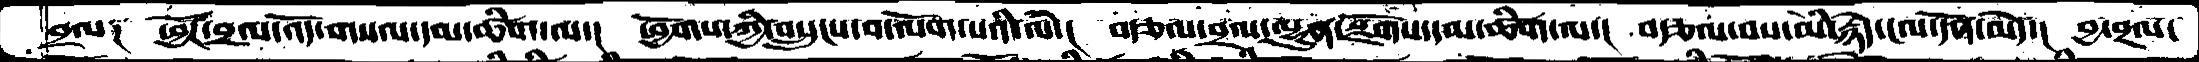བྲལ༑  ཕྱོཌ་བྲལ་འོད་གསལ་དམ་ཚིག་ལ་།  ཕྲོགས་ཀྱི་བསྲུངས་བ་ལོག་པའི་ལཾ་།  བརྩལ་བྲལ་ལྷུན་སྫོགས་དམ་ཚིག་ལ་།  བརྩལ་བས་མི་རྙེད་ངལ་དོན་མེད་།  བྱ་བྲལ་
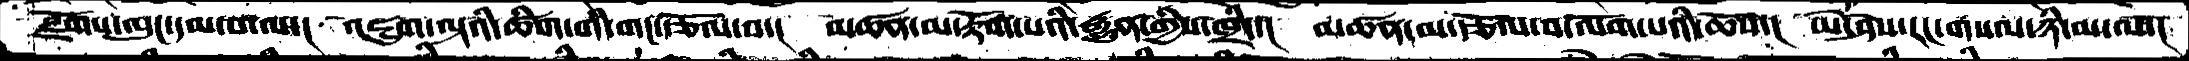སྫོགས་ལུང་དམ་པ་ལ་།  འཇུག་ལྟའི་ཚིག་གི་གང་རྩོལ་བ་།  མཚན་མ་རྟོག་པའི་རྒྱུན་གྱིས་ཁྲིད་།  མཚན་མ་རྩོལ་བ་ལོག་པའི་ཆོས་།  ཡེ་ཤེས་རང་གསལ་ཉི་མ་ལ་།
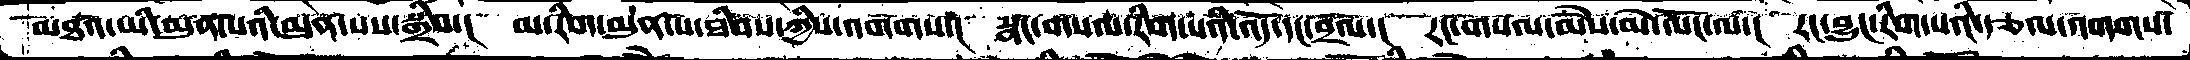མཐའ་ཡི་མུན་པའི་མུན་པས་སྒྲིབ་།   མ་རིག་མུན་པ་ཐིབས་ཀྱིས་འགགས་།  སྣང་གསལ་རིག་པའི་འོད་དང་བྲལ་།  རང་གསལ་ཡཻས་མེ་ལོང་ལ་།  རང་བྱུང་རིག་པའི་རྩལ་འགགས་
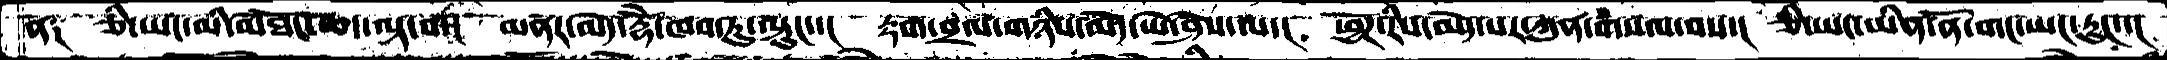ན༑   ཅི་ཡང་མི་མཐོང་ཆད་ལྟ་བ་།   མནར་མེད་རྡོེ་ཁབ་ཏུ་ལྟུང་་།  རྟག་བྲལ་གཉིས་མེད་ཡེ་ཤེས་ལ་།  ཕྱོཌ་རིས་མེད་པར་ཀུན་གསལ་བས་།  ཅི་ཡང་ཡིན་ནོ་གང་ཡང་རུང་་།
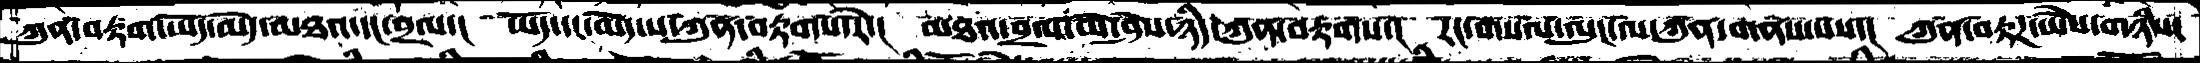ཀུན་བརྟག་ཡོད་མེད་མཐའ་དང་བྲལ་།  ཡོད་དང་མེད་པ་ཀུན་བརྟགས་རེ་།   མཐའ་བྲལ་ཡེ་ཤེས་ཉིད་ཀུན་བརྟགས་།  རང་གསལ་ལུང་ལ་ཀུན་གནས་པས་།  ཀུན་བརྟཌ་ཡཻས་གཉིས་
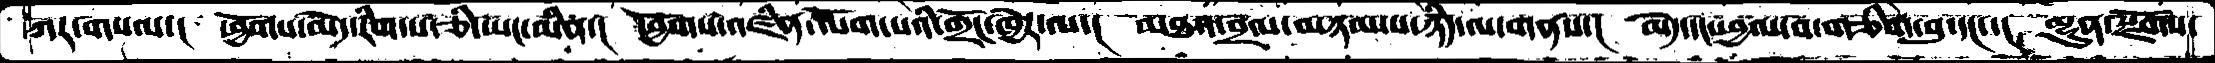ཀར་གསལ་།  ཕྱོགས་མེད་རིག་པ་ཅི་ཡང་མིན་།  ཕྱོགས་འཛིན་ལོག་པའི་གྲོང་ཁྱེར་ལ་།  མཐའ་བྲལ་མཉམ་པ་ཉིད་ལ་གནས་།  མེད་དང་ཕྱལ་བ་གཅིག་བུ་དང་་།  ལྷུན་སྫོགས་
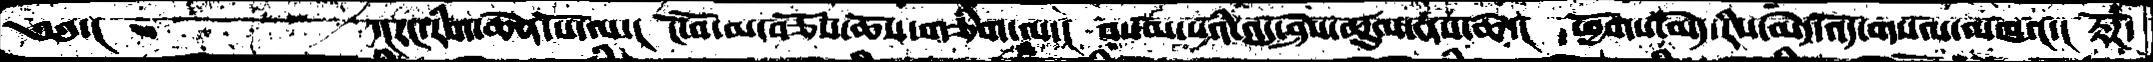༄༅་།        ་།རང་རིག་ཆེན་པོ་ལ་།  ངོ་བོ་མ་བཅོས་ཆོས་གཅིག་ལ་།  བསམ་པའི་འདུ་ཤེས་ཚུལ་ནས་ཆེ་།  ཕྱོགས་མེད་རིས་མེད་འོད་གསལ་མཁའ་།  རྟོཌ་
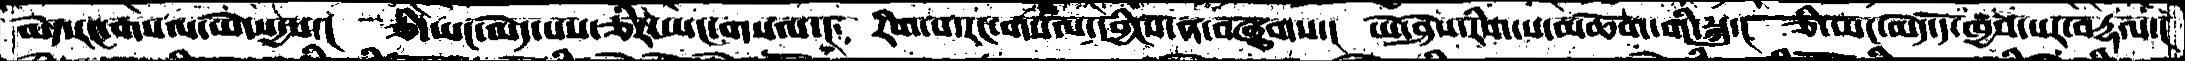མེད་རང་གསལ་ཡེ་སདྱས་།  ཅི་ཡང་མེད་པས་ཅིར་ཡང་གསལ་།  རིག་པ་རང་གསལ་དབྱིངས་ན་བཞུགས་།  ཡེ་ཤེས་རིག་པ་མཆོག་གི་སྐུ་།  ཅི་ཡང་མེད་དོ་ཁྱབ་པར་བརྡལ་།
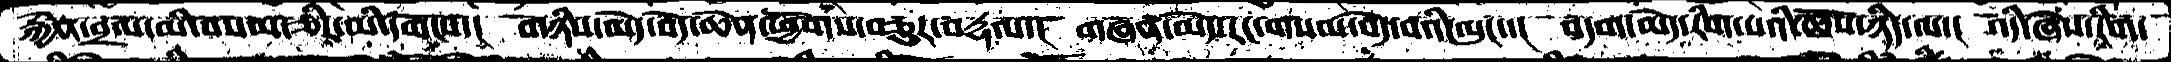རྐྱེན་བྲལ་མི་བསམ་ཅིར་མི་དགོངས་།  གཉིས་མེད་བདེ་ཆེན་ཕྱོགས་བཅུར་བརྡལ་།  གཞན་མེད་རང་གསལ་བདེ་བའི་ལུང་་།  བདག་མེད་རིག་པའི་ཆོས་ཉིད་ལ་།  འདི་ཞེས་རིག་
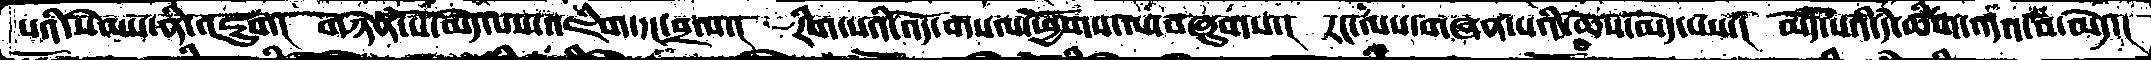པའི་སེམས་ནི་འཇུག།  གཉེན་པོ་མེད་པས་འཇིག་དང་བྲལ་།  རིག་པའི་འོད་གསལ་ཕྱོགས་ལ་བཞུགས་།  རང་ལས་གཞན་པའི་ཆོས་མེད་པས་།  མེད་པའི་དཾ་ཚིག་འདའ་བ་མེད་།
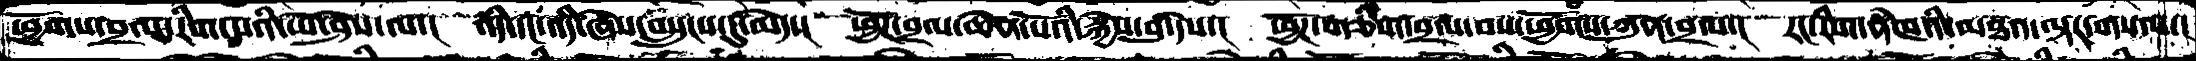ཕྱོགས་བྲལ་རིག་པའི་ཡེ་ཤེས་ལ་།  འདི་དང་འདི་ཞེས་བསྲུངས་དུ་མེད་།  ཕྱོཌ་བྲལ་ཆེན་པོའི་སྐྱེས་བུ་དེས་།  ཕྱོཌ་གཅིག་བྲལ་བས་ཕྱོགས་ཀུན་བྲལ་།  རང་རིག་ནཾཁའི་མཐའ་ལྟར་གསལ་།
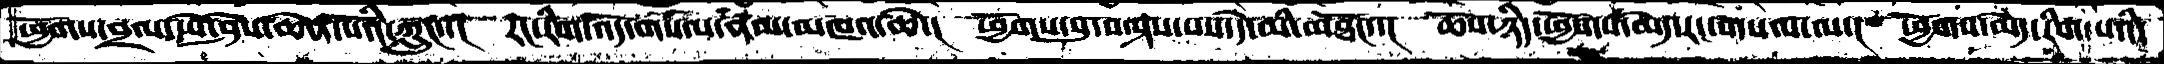ཕྱོགས་བྲལ་ཡེ་ཤེས་ཆེན་པོའི་ཀླུང་་།  རང་རིག་འོད་གསལ་ནམ་མཁའ་ཆེ་།  ཕྱོགས་སུ་བལྟས་པས་དེ་མི་་མཐོང་་།  ཆོས་ཉིད་ཕྱོགས་མེད་རང་གསལ་ལ་།  ཕྱོགས་མེད་རིག་པའི་
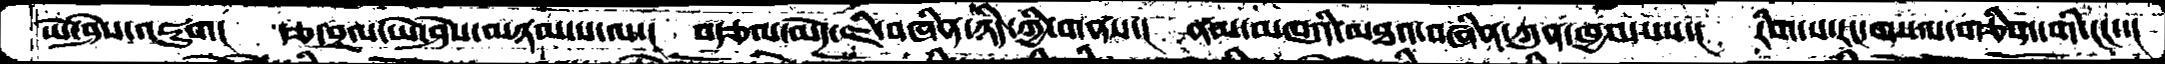ཡེ་ཤེས་འཇུག།  རྩ་བྲལ་ཡེ་ཤེས་མཉམ་པ་ལ་།  བརྩལ་མེད་ཇི་བཞིན་ཉིད་ཀྱི་གནས་།  ནམ་མཁའི་མཐའ་བཞིན་ཀུན་ཁྱབ་པས་།  རིག་པ་རང་གསལ་གཅིག་གི་ངང་་།
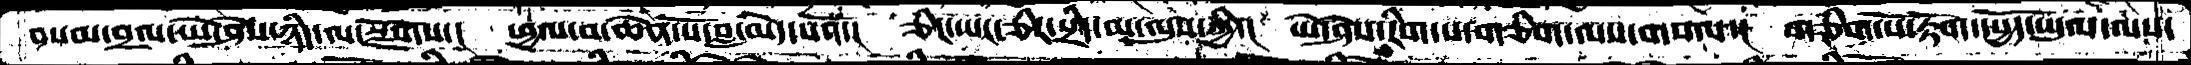བསམ་བྲལ་ཡེ་ཤེས་ཉིད་ལ་སྫོགས་།  ཕྱལ་བ་ཆེན་པོ་བླ་མེད་པའོ་།  ཅིར་ཡང་ཅིར་སྲིད་མ་ལུས་ཀྱི་།  ཡེ་ཤེས་རིག་པ་གཅིག་ལས་གསལ་།  གཅིག་པོ་རྟོག་དཔྱོད་ཡུལ་ལས་
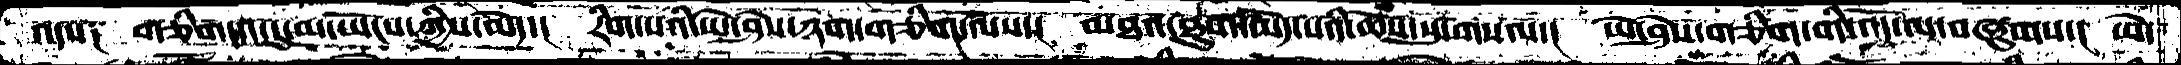འདས༑    གཅིག་དང་དུ་མ་ཡོངས་ཀྱིས་མེད་།  རིག་པའི་ཡེ་ཤེས་ཉག་གཅིག་ལས་།  མཐའ་ཐུག་མེད་པའི་ཆོས་སུ་གསལ་།  ཡེ་ཤེས་གཅིག་གི་འོད་ལ་བཞུགས་།  ཡེ་
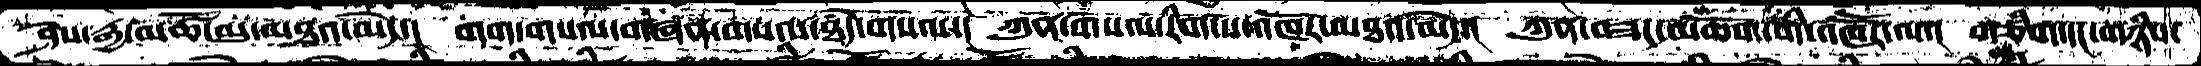ཤེས་རྒྱ་མཚོ་མུ་མཐའ་མེད་།   གག་གསལ་གཞན་གསལ་ཐཾད་གསལ་།  ཀུན་གསལ་རིག་པ་འཁོར་མཐའ་མེད་།  ཀུན་བཟང་མཆོག་གི་འཁཽར་ལ་།  གཅིག་དང་གཉིས་
